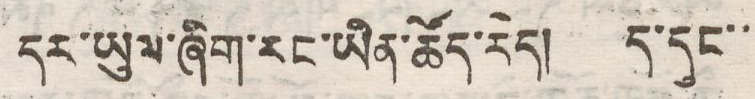དར་ཡུལ་ཞིག་རང་ཡིན་ཚོད་རེད། ད་དུང་་
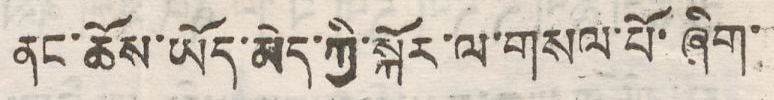ནང་ཆོས་ཡོད་མེད་ཀྱི་སྐོར་ལ་གསལ་པོ་ཞིག་་
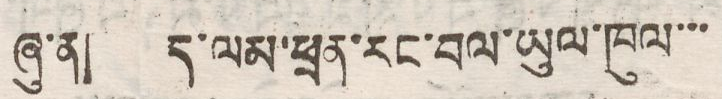ཞུ་ན། ད་ལམ་ཕྲན་རང་བལ་ཡུལ་ཁུལ་་་
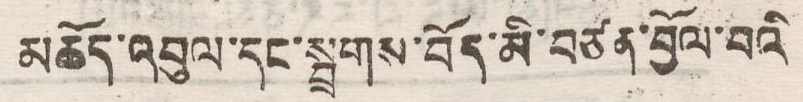མཆོད་འབུལ་དང་སྦྲགས་བོད་མི་བཙན་བྱོལ་བའི་
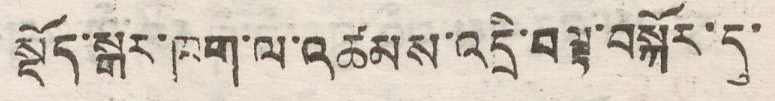སྡོད་སྒར་ཁག་ལ་འཚམས་འདྲི་བལྟ་བསྐོར་དུ་
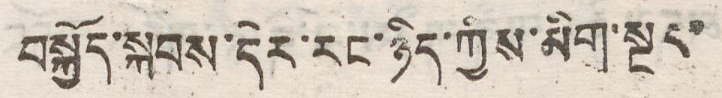བསྐྱོད་སྐབས་དེར་རང་ཉིད་ཀྱིས་མིག་སྔར་
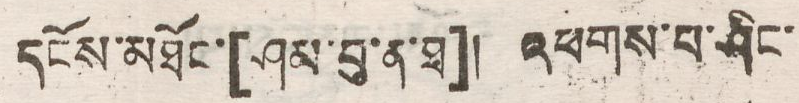དངོས་མཐོང་། [ ཤམ་བུ་ན་ཐ། ] འཕགས་པ་ཤིང་
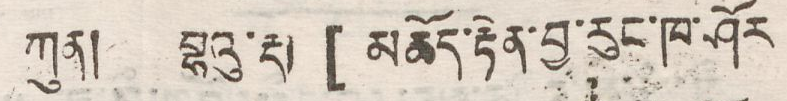ཀུན། གྷའུ་རྡ [ མཆོད་རྟེན་བྱ་རུང་ཁ་ཤོར
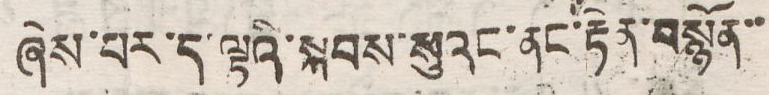ཞེས་པར་ད་ལྟའི་སྐབས་སུའང་ནང་རྟེན་བསྙོན་་
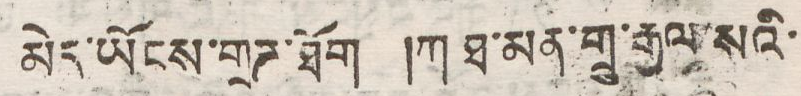མེད་ཡོངས་གྲཊ་ཐོག །ཀ ཐ་མན་གྲུ་རྒྱལ་སའི་
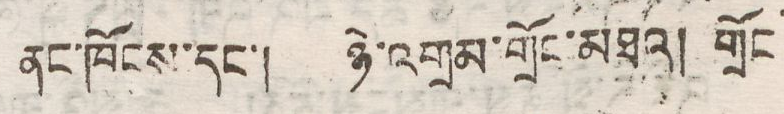ནང་ཁོངས་དང་། ཉེ་འགྲམ་གྲོང་མཐའ། གྲོང་
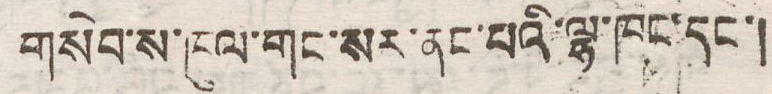གསེབ་ས་ཁུལ་གང་སར་ནང་པའི་ལྷ་ཁང་དང་།
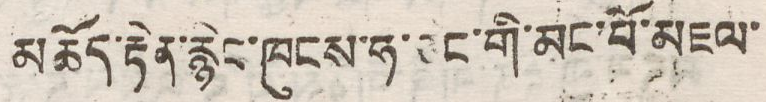མཆོད་རྟེན་རྙེང་ཁུངས་ཧ་ཅང་གི་མང་པོ་མཇལ་
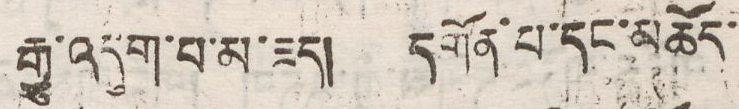རྒྱུ་འདུག་པ་མ་ཟད། དགོན་པ་དང་མཆོད་
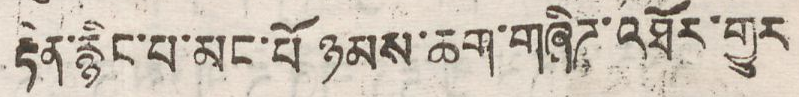རྟེན་རྙིང་པ་མང་པོ ཉམས་ཆག་གཞིཊ་འཐོར་གྱུར
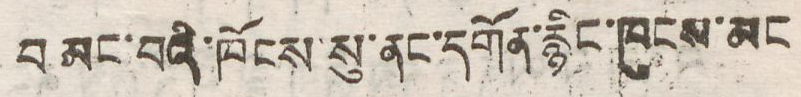བམང་བའི་ཁོངས་སུ་ནང་དགོན་རྙིང་ཁུངས་མང
